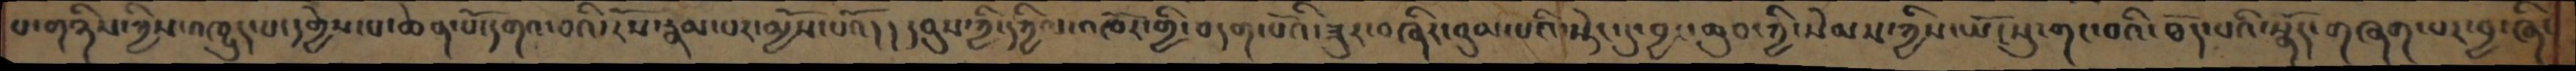པ་གཉིས་ཀྱིས་འཁྱུད་པ་དགྱེས་པ་ཆེན་པོ་དགའ་བའི་རོས་རྣམ་པར་མྱོས་པའོ། །དབུས་ཀྱི་དཀྱིལ་འཁོར་གྱི་བདག་པོའི་ཟུར་བཞིར་བུམ་པའི་སྡེང་དུ་བྱང་ཆུབ་ཀྱི་སེམས་ཀྱིས་ཡོངསུ་གང་བའི་ཐོད་པའི་སྣོད་གཞག་པར་བྱ་ཞིང
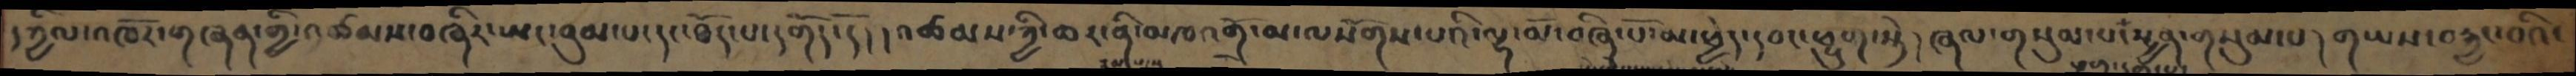དཀྱིལ་འཁོར་གཞན་གྱི་འཚམས་བཞིར་ཡང་བུམ་པ་དང་ཐོད་པ་དགོད་དོ། །འཚམས་ཀྱི་ཆར་ནི་མཁའགྲོ་མ་ལསོགས་པའི་ལྷ་མོ་བཞི་པོ་མ་ཕྱེད་དབང་ཕྱུག་སྟེ། ཞལ་གསུམ་པ་སྤྱན་གསུམ་པ། གཡས་བརྐྱང་བའི་
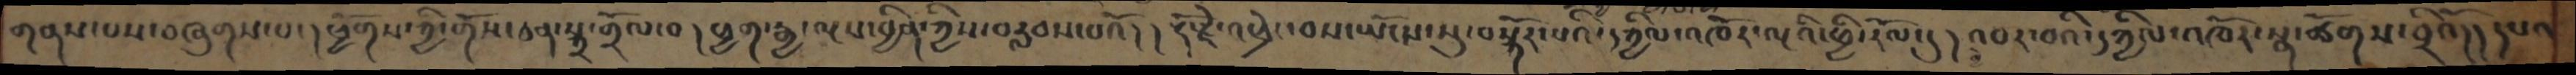གནས་པས་བཞུགས་པ་། ཕྱོགས་ཀྱི་གོས་ཅན་སྐྲ་གྲོལ་བ། ཕྱག་རྒྱ་ལྔས་བྱིན་ཀྱིས་བརླབས་པའོ།། རྡོ་རྗེ་འཕྲེང་བས་ཡོངས་སུ་བསྐོར་པའི་དཀྱིལ་འཁོར་ལྔའི་ཕྱི་རོལ་དུ། འབར་བའི་དཀྱིལ་འཁོར་སྣ་ཚོགས་བྲིའོ།། དཔའ
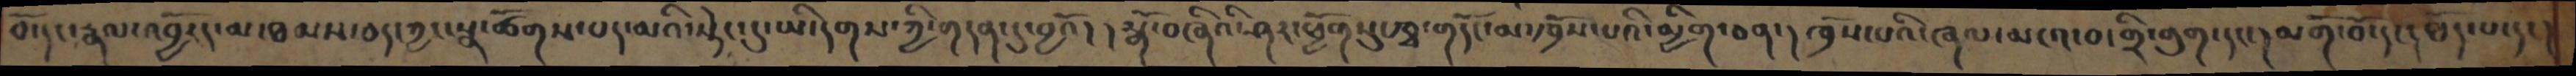བོ་དང་རྣལ་འབྱོརད་མ་ཐམས་ཅད་ཀྱང་སྣ་ཚོགས་པད་མའི་སྟེང་དུ་ཡི་དགས་ཀྱི་གདན་དུ་བྱའོ། །སྒོ་བཞིའི་ཤར་ཕྱོགསུ་ཁྭ་གདོང་མ་ཁྲོས་པའི་མྱིག་ཅན་ །ཁྲོས་པའི་ཞལ་མངའ་བ་གྲི་གུག་དང་ །མགོ་བོ་དང། ཐོད་པ་དང །
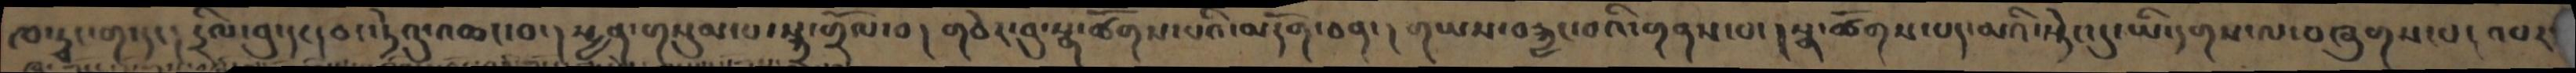ཁ་ཏྭང་ག་དང། དྲིལ་བུ་དང།ཅང་ཏེའུ་འཆང་བ་། སྤྱན་གསུམ་པ་སྐྲ་གྲོལ་བ། གཅེར་བུ་སྣ་ཚོགས་པའི་མདོག་ཅན་། གཡས་བརྐྱང་བའི་གནས་པ་། སྣ་ཚོགས་པད་མའི་སྟེང་དུ་ཡི་དགས་ལ་བཞུགས་པ། འབར་
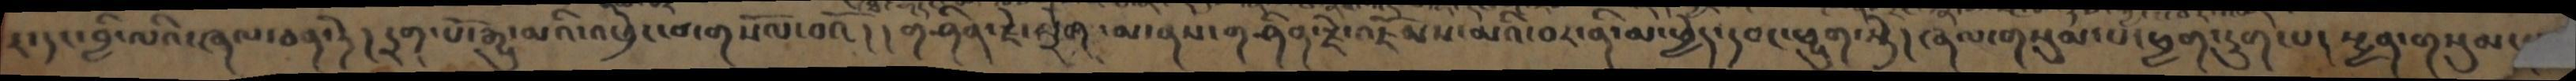ར་དང་བྱི་ལའི་ཞལ་ཅན་ཏེ། དྲག་པོ་རྒྱུ་མའི་འཕྲེང་བ་གསོལ་བའོ།། གཤིན་རྗེ་ཕྲེག་མ་ནས་གཤིན་རྗེ་འཇོམས་མའི་བར་ནི་མ་ཕྱེད་དབང་ཕྱུག་སྟེ། ཞལ་གསུམ་པ་ཕྱག་དྲུག་པ། སྤྱན་གསུམ་པ
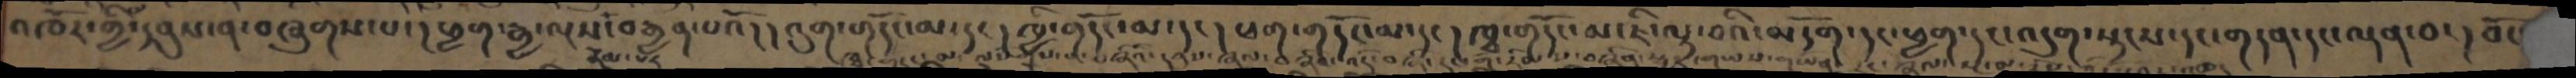འཁོར་གྱི་དབུས་ན་བཞུགས་པ་། ཕྱག་རྒྱ་ལྔས་རྣམ་པར་བརྒྱན་པའོ། །འུག་གདོང་མ་དང། ཁྱི་གདོང་མ་དང། ཕག་གདོང་མ་དང། ཁྭ་གདོང་མ་ཇི་ལྟ་བའི་མདོག་དང་ཕྱག་དང་འདུག་སྟངས་དང་གདན་དང་ལྡན་བ་། བོང
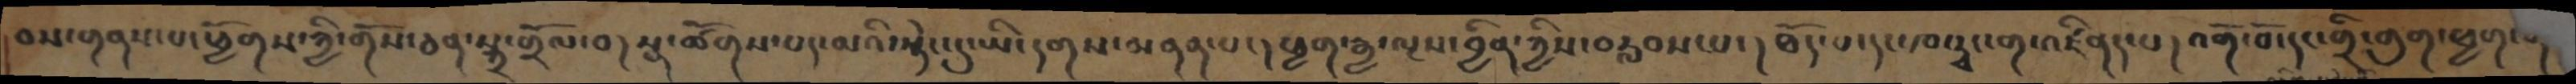བས་གནས་པ་ཕྱོགས་ཀྱི་གོས་ཅན་སྐྲ་གྲོལ་བ། སྣ་ཚོགས་པད་མའི་སྟེང་དུ་ཡི་དགས་མནན་པ་། ཕྱག་རྒྱ་ལྔས་བྱིན་ཀྱིས་བརླབས་པ་། ཐོད་པ་དང་ཁ་ཏྭང་ག་འཛིནད་པ། འགོ་བོ་དང་གྲི་གུག་ཕྱག་
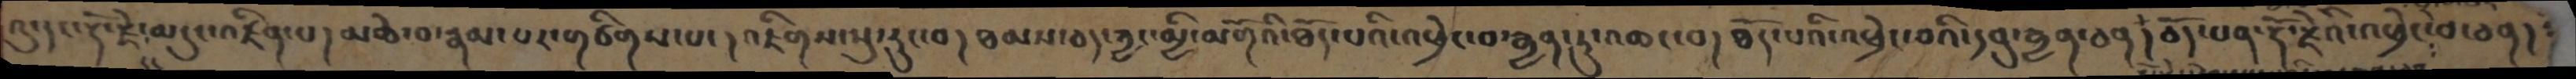འུ་དང་རྡོ་རྗེ་མདུང་འཛིན་པ། མཆེ་བ་རྣམ་པར་གཙིགས་པ། འཇིགས་སུ་རུང་བ། ཐམས་ཅད་ཀྱང་མྱི་མགོའི་ཐོད་པའི་འཕྲེང་བ་རྒྱན་ཏུ་འཆང་བ། ཐོད་པའི་འཕྲེང་བའི་དབུ་རྒྱན་ཅན། ཅོད་པན་རྡོ་རྗེའི་འཕྲེང་བ་ཅན།
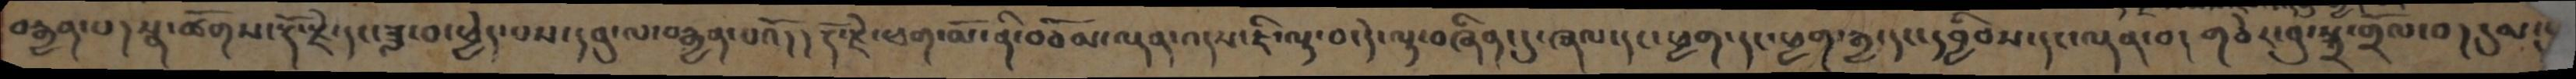བརྒྱན་པ། སྣ་ཚོགས་རྡོ་རྗེ་དང་ཟླ་བ་ཕྱེད་པས་དབུ་ལ་བརྒྱན་པའོ། །རྡོ་རྗེ་ཕག་མོ་ནི་བཅོམ་ལྡན་འདས་ཇི་ལྟ་བ་དེ་ལྟ་བཞིན་དུ་ཞལ་དང་ཕྱག་དང་ཕྱག་རྒྱ་དང་དབྱིབས་དང་ལྡན་བ། གཅེར་བུ་སྐྲ་གྲོལ་བ། དུམ་
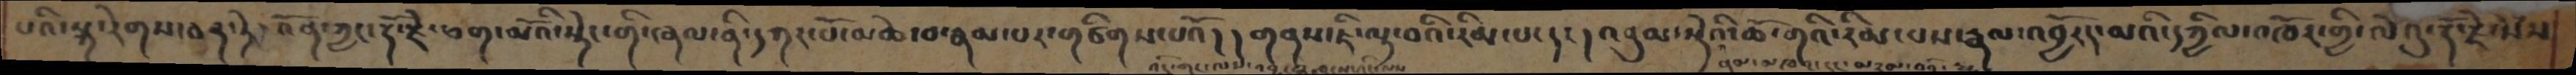པའི་སྐ་རེགས་ཅན་ཏེ། འོན་ཀྱང་རྡོ་རྗེ་ཕག་མོའི་སྟེང་གི་ཞལ་ནི་དཀར་པོ་མཆེ་བ་རྣམ་པར་གཙིགས་པའོ། །གནས་ཇི་ལྟ་བའི་རིམ་པ་དང། འབུམ་སྡེའི་ཆོ་གའི་རིམ་པས་རྣལ་འབྱོརད་མའི་དཀྱིལ་འཁོར་གྱི་ལེའུ་རྡོ་རྗེ་སེཾས་
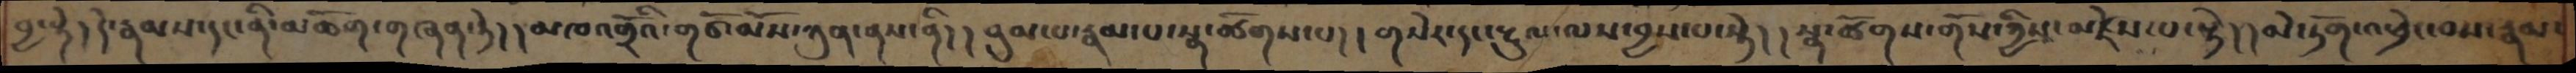བྱ་སྟེ། དེ་རྣམས་དང་ནི་མཆོག་གཞན་ཏེ། །མཁའགྲོའི་གཙོ་མོས་ཀུན་ནས་ནི། །བུམ་པ་རྣམ་པ་སྣ་ཚོགས་པ། །གསེར་དང་རྔུལ་ལས་བྱས་པ་སྟེ། །སྣ་ཚོགས་གོས་ཀྱིས་མཛེས་པ་སྟེ། ། མེ་ཏོག་འཕྲེང་བས་རྣམ་
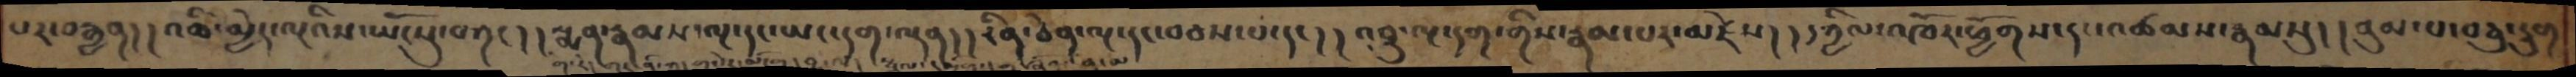པར་བརྒྱན། །འཆི་མྱེད་ལྔའིས་ཡོངསུ་བཀང། །སྨན་རྣམས་ལྔ་དང་ཡང་དག་ལྡན། །རིན་ཅེན་ལྔ་དང་་བབས་པ་དང། །འབྲུ་ལྔ་དག་གིས་རྣམ་པར་མཛེས། །དཀྱིལ་འཁོར་ཕྱོགས་དང་འཚམས་རྣམསུ། །བུམ་པ་བཅུ་དྲུག
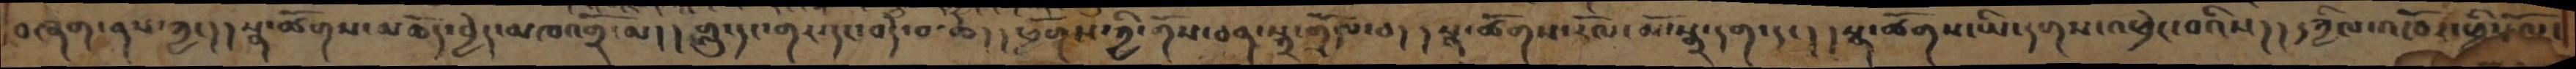བཞག་ནས་ཀྱང། །སྣ་ཚོགས་མཆོད་བྱེད་མཁའགྲོ་མ། །གླུ་དང་གར་དང་བདེ་བ་ཆེ། །ཕྱོགས་ཀྱི་གོས་ཅན་སྐྲ་གྲོལ་བ། །སྣ་ཚོགས་རོལ་མོ་སྒྲ་དག་དང། །སྣ་ཚོགས་ཡི་དགས་འཕྲེང་བའིས། །དཀྱིལ་འཁོར་ཕྱི་རོལ་
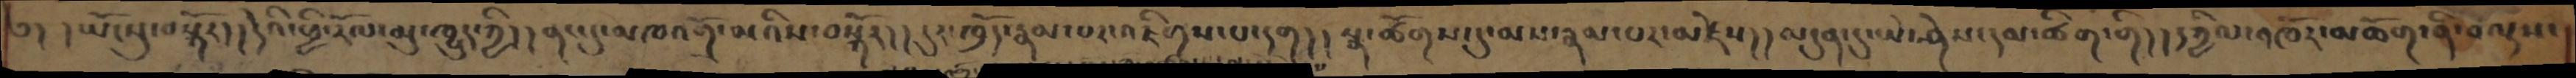༄། །ཡོངསུ་བསྐོར། དེའི་ཕྱི་རོལ་མུ་ཁྱུད་ཀྱི། །ནང་དུ་མཁའགྲོ་མའིས་བསྐོར། །དུར་ཁྲོད་རྣམ་པར་འཇིགས་པ་དག། །སྣ་ཚོགས་དུ་མས་རྣམ་པར་མཛེས། །མདུན་དུ་ཡེ་ཤེས་དམ་ཚིག་གི། །དཀྱིལ་འཁོར་མཆོག་ནི་བལྟས་
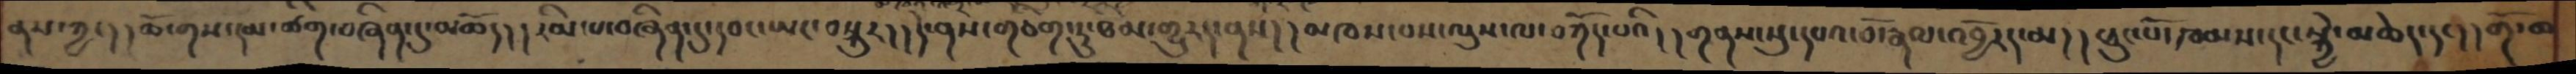ནས་ཀྱང། །ཆོ་གས་དམ་ཚིག་བཞིན་དུ་མཆོད། །རིམ་པ་བཞིན་དུ་དབང་ཡང་བསྐུར། །དེ་ནས་གཅིག་ཏུ་ཐིམ་གྱུརད་ནས། །མཁས་པས་ལུས་ལ་བཀོད་པའི། །གནས་སུ་དཔའ་བོ་རྣལ་འབྱོརད་མ། །ཕུང་པོ་ཁམས་དང་སྐྱེ་མཆེད་དང། །གོ་ཆ་
